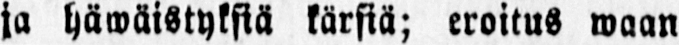ja häwäistyksiä kärsiä; eroitus waan
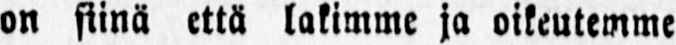on siinä että lakimme ja oikeutemme
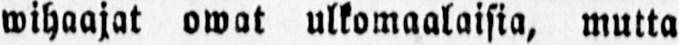wihaajat owat ulkomaalaisia, mutta
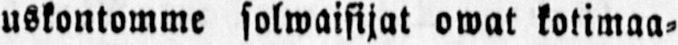uskontomme solwaisijat owat kotimaa-
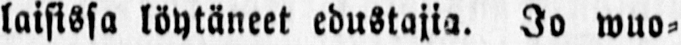laisissa löytäneet edustajia. Jo wuo-
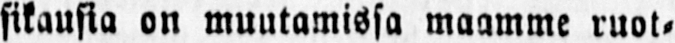sikausia on muutamissa maamme ruot-
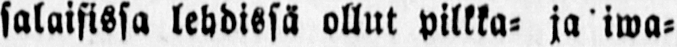salaisissa lehdissä ollut pilkka- ja iwa-
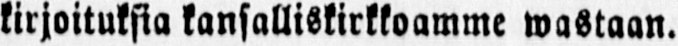kirjoituksia kansalliskirkkoamme wastaan.
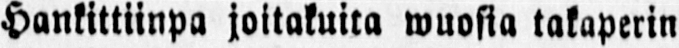Hankittiinpa joitakuita wuosta takaperin
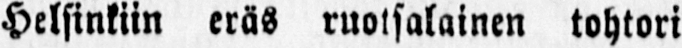Helsinkiin eräs ruotsalainen tohtori
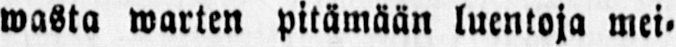wasta warten pitämään luentoja mei-
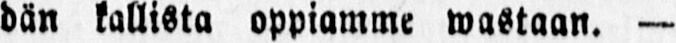dän kallista oppiamme wastaan. —
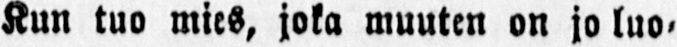Kun tuo mies, joka muuten on jo luo-
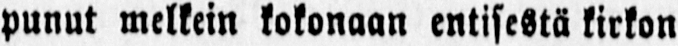punut melkein kokonaan entisestä kirkon
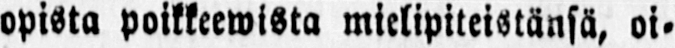opista poikkeewista mielipiteistänsä, oi-
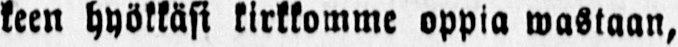keen hyökkäsi kirkkomme oppia wastaan,
